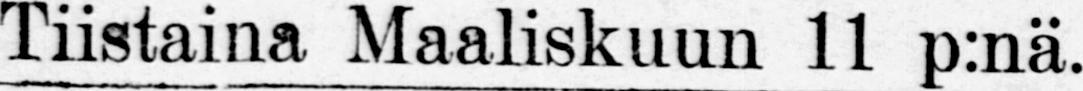Tiistaina Maaliskuun 11 p:nä.
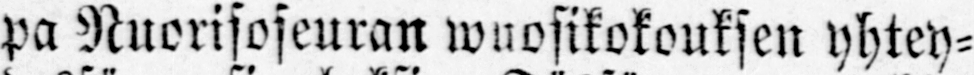pa Nuorisoseuran wuosikokouksen yhtey-
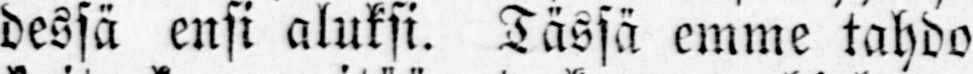dessä ensi aluksi. Tässä emme tahdo
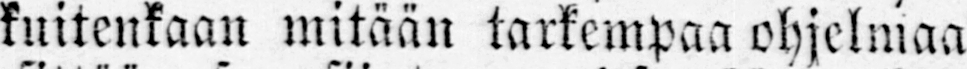kuitenkaan mitään tarkempaa ohjelmaa
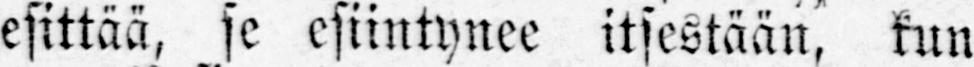esittää, se esiintynee itsestään, kun
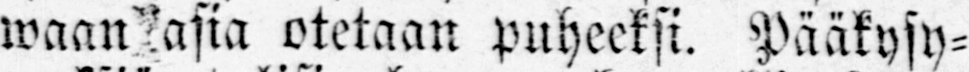waan asia otetaan puheeksi. Pääkysy-
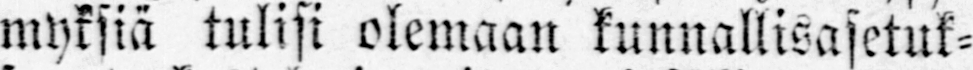myksiä tulisi olemaan kunnallisasetuk-
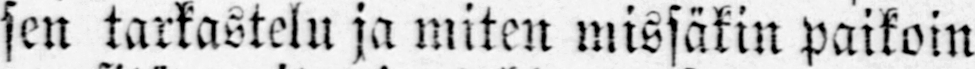sen tarkastelu ja miten missäkin paikoin
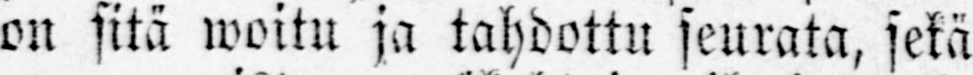on sitä woitu ja tahdottu seurata, sekä
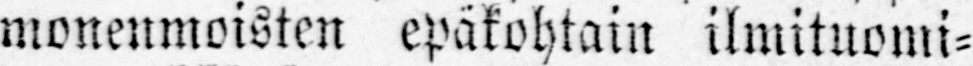monenmoisten epäkohtain ilmituomi-
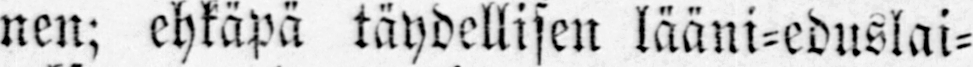nen; ehkäpä täydellisen lääni-eduslai-
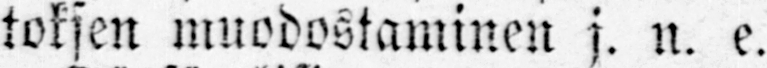toksen muodostaminen j. n. e.
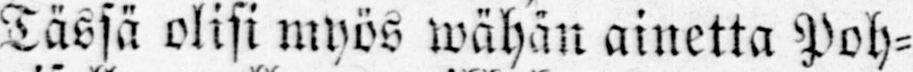Tässä olisi myös wähän ainetta Poh-
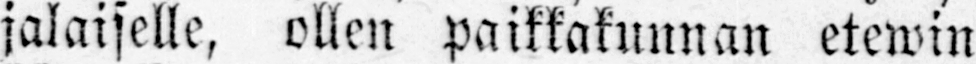jalaiselle, ollen paikkakunnan etewin
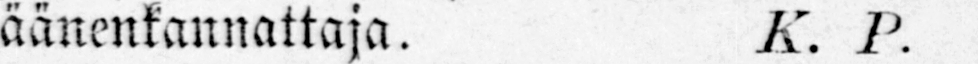äänenkannattaja. K. P.
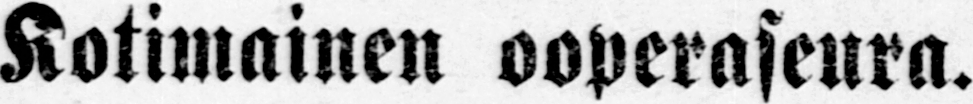Kotimainen ooperaseura.
